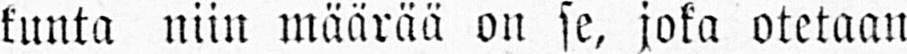kunta niin määrää on se, joka otetaan
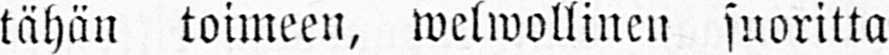tähän toimeen, welwollinen suoritta
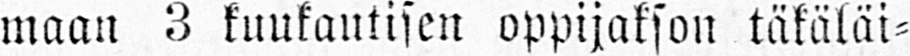maan 3 kuukautisen oppijakson täkäläi-
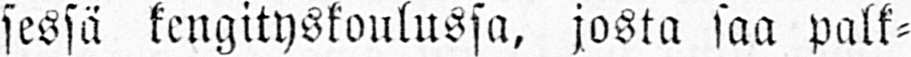sessä kengityskoulussa, josta saa palk-
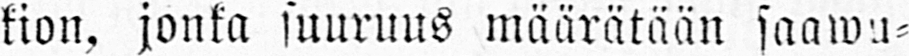kion, jonka suuruus määrätään saawu-
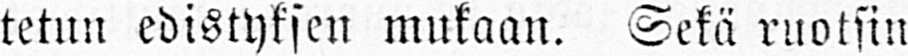tetun edistyksen mukaan. Sekä ruotsin
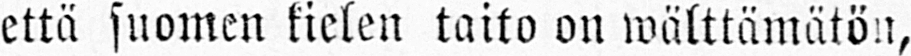että suomen kielen taito on wälttämätön,
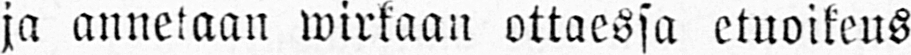ja annetaan wirkaan ottaessa etuoikeus
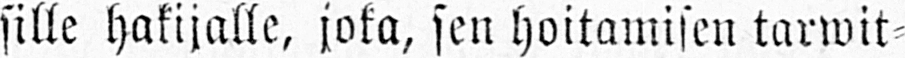sille hakijalle, joka, sen hoitamisen tarwit-
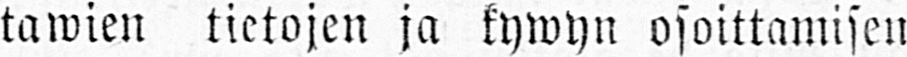tawien tietojen ja kywyn osoittamisen
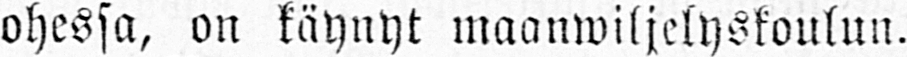ohessa, on käynyt maanwiljelyskoulun.
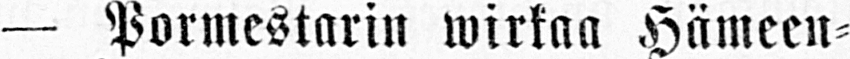— Pormestarin wirkaa Hämeen-
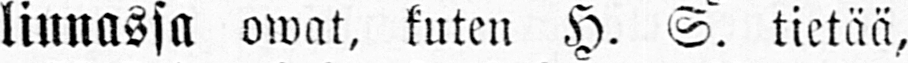linnassa owat, kuten H. S. tietää,
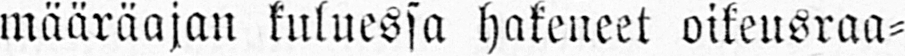määräajan kuluessa hakeneet oikeusraa-
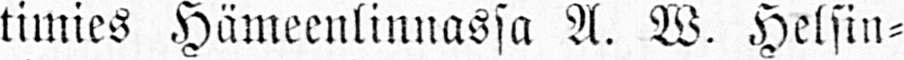timies Hämeenlinnassa A. W. Helsin-
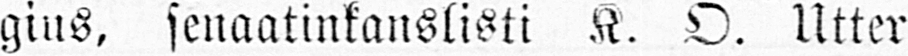gius, senaatinkanslisti K. O. Utter
